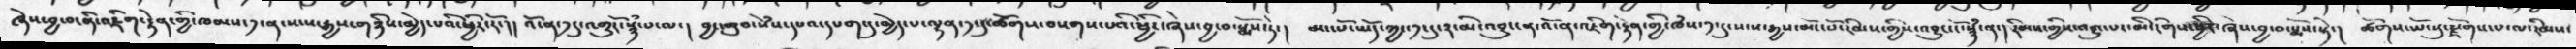ཞེས་བྱ་བ་ནི་འཇིག་རྟེན་གྱི་ཁམས་༡་ན་སངས་རྒྱས་གཉིས་མྱེད་པའི་ཕྱིར་རོ་།། འོ་ན་༡དུ་འགྱུརོ་སྙཾ་པ་ལ་།  བྱང་ཆུབ་སེཾས་དཔའ་དཔག་དུ་མྱེད་པ་ལྷན་༡་དུ་ཚོགས་བསགས་པའི་ཕྱིར་ཞེས་བྱ་བ་སྨོས་ཏེ་།   མང་པོ་ཡོད་ཀྱང་༡་དུ་༢་མི་འབྱུང་ན་འོ་ན་འཇིག་རྟེན་གྱི་ཁཾས་༡་དུ་སངས་རྒྱས་མོང་པོ་རིམས་གྱིས་འབྱུང་ངོ་སྙཾ་ན་། རིམས་གྱིས་འབྱུང་པར་མི་རིགས་ཕྱིར་ཞེས་བྱ་བ་སྨོས་སྟེ་།  ཚོགས་ཡོངསུ་རྫོགས་པ་ལ་རིམས་
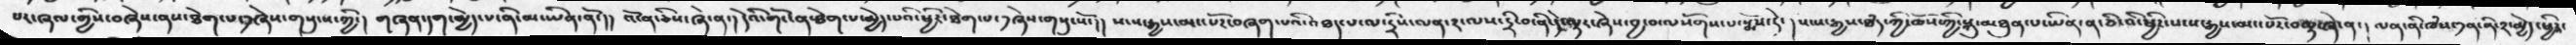པར་ཞལ་གྱིས་བཞེས་ནས་ཐེག་པ་༡ཞེས་གསུངས་ཀྱི་།  གཞན་དག་མྱེད་པ་ནི་མ་ཡིན་ནོ་།། འོ་ན་ཅིས་ཞེ་ན་། དེའི་གོང་ན་ཐེག་པ་མྱེད་པའི་ཕྱིར་ཐེག་པ་༡ཞེས་གསུངསོ་།། སངས་རྒྱས་མང་པོར་བཞག་པའི་འཐད་པ་ལ་དྲིས་ལན་༢་ལས་དྲི་བ་ནི་དེ་ལྟར་ཞེས་བྱ་བ་ལསོགས་པ་སྨོས་ཏེ་ ། སངས་རྒྱས་ཐཾད་ཀྱི་ཆོས་ཀྱི་སྐུ་མཐུན་པ་ཡིན་ན་ཅི་འི་ཕྱིར་སངས་རྒྱས་མང་པོར་བལྟ་ཞེད་ན་། ལན་ནི་ཁཾས་༡ན་ནི་༢་མྱེད་ཕྱིར་
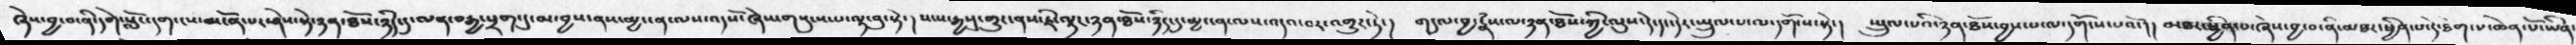ཞེས་བྱ་བ་ནི་དགེ་སློང་དག་ངས་མངོན་པར་ཤེས་སྟེ་ཉན་ཐོས་ཉིད་དུ་ལན་བརྒྱ་ཕྲག་དུ་མ་བྱས་ནས་མྱ་ངན་ལས་འདསོ་ཞེས་གསུངས་པ་ལྟ་བུ་སྟེ་།   སངས་རྒྱསུ་གྱུར་ནས་ཇི་ལྟར་ཉན་ཐོས་ཉིད་དུ་མྱ་ངན་ལས་འདའ་བར་འགྱུར་ཏེ་།  གདུལ་བྱ་རྣཾ་ལ་ཉན་ཐོས་ཀྱི་ལུས་དེ་དང་དེར་སྤྲུལ་པ་ལ་དགོངས་སྟེ་།  སྤྲུལ་པའི་ཉན་ཐོས་བྱས་པ་ལ་དགོངས་པའོ་།།  མཐར་ཕྱིན་པ་ཞེས་བྱ་བ་ནི་མཐར་ཕྱིན་པ་དེ་ཐེག་པ་ཆེན་པོ་ཡིན་
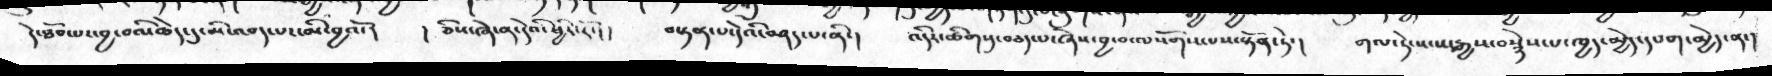དེ་ཐོབ་པར་བྱ་བའི་ཆེད་དུ་མི་འབད་པར་མི་བྱའོ་།  །ཅིས་ཞེ་ན་དེའི་ཕྱིར་རོ།  བསྟན་པ་དེའི་བཤད་པ་ནི་།  འདིར་ཚིགསུ་བཅད་པ་ཞེས་བྱ་བ་ལསོགས་པས་སྟོན་ཏེ་།  གལ་ཏེ་སངས་རྒྱས་བསྙེས་པ་ཁྱད་མྱེད་དཔག་མྱེད་ན་།
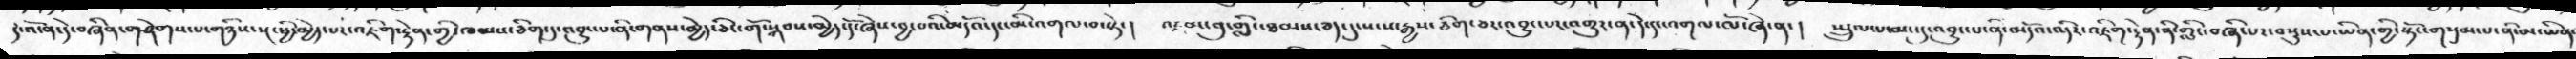དེ་འདོན་དེ་བཞིན་གཤེགས་པ་གཉིས་སྔ་ཕྱི་མྱེད་པར་འཇིག་རྟེན་གྱི་ཁམས་ཅིག་དུ་འབྱུང་པ་ནི་གནས་མྱེད་ཅིང་གོ་སྐབས་མྱེད་དོ་ཞེས་བྱ་བའི་མདོའ་དང་མི་འགལ་བ་སྟེ་།  འཛམ་བུ་གླིང་ཐམས་ཅད་དུ་སངས་རྒྱས་ཅིག་ཅར་འབྱུང་པར་འགྱུར་ན་དེ་དང་འགལ་ལོ་ཞེ་ན་།  སྤྲུལ་པ་མང་དུ་འབྱུང་པ་ནི་མདོའ་འདིར་འཇིག་རྟེན་ནི་གླིང་བཞི་པར་བསྡུས་པ་ཡིན་གྱི་སྟོང་གསུམ་པ་ནི་མ་ཡིན་
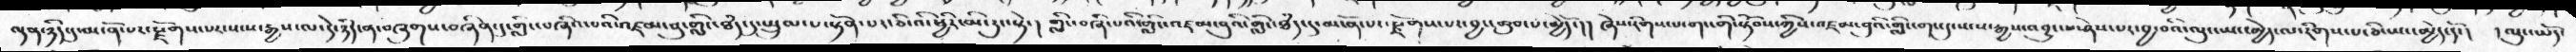ལྡན་ཉིད་དུ་མངོན་པར་རྫོགས་པར་སངས་རྒྱས་ལ་དེ་ཉིད་ན་བཞུགས་བཞིན་དུ་གླིང་བཞིའ་པའི་འཛམ་བུ་གླིང་ཐདཾ་དུ་སྤྲུལ་པ་སྟོན་པར་ཅི་འི་ཕྱིར་མི་རུང་སྟེ་།  གླིང་བཞི་པའི་གླིང་འཛམ་བུའི་གླིང་ཐདཾ་དུ་མངོན་པར་རྫོགས་པར་བྱང་ཆུབ་པ་མྱེདོ་།།  ཞེས་རིགས་པ་གང་གི་སྟོབས་ཀྱིས་འཛམ་བུའི་གླིང་གང་དུ་སངས་རྒྱས་འབྱུང་པ་ཤེས་པར་བྱ་བའི་ལུང་ཡང་མྱེད་ལ་རིགས་པ་ཅི་ཡང་མྱེད་དོ་།  ། ལུང་ཡོད་
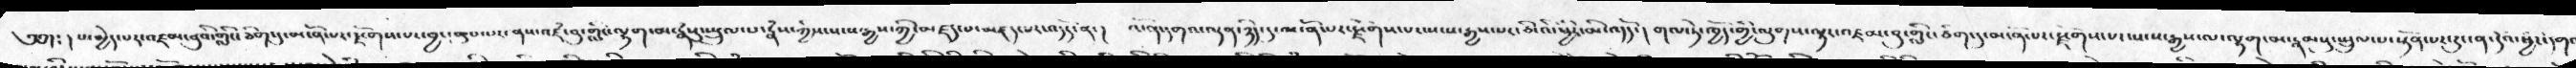༄༅།  ༴ །པ་མྱེད་པར་འཛམ་བུའི་གླིང་ཅིག་དུ་མངོན་པར་རྫོགས་པར་བྱང་ཆུབ་པར་ནས་འཛཾ་བུ་གླིང་ལྷག་མ་རྣཾསུ་སྤྲུལ་པ་རྣཾས་ཀྱིས་སངས་རྒྱས་ཀྱི་མཛད་པར་འདོད་ན་།   འོ་ན་དགའ་ལྡན་ཉིད་དུ་མངོན་པར་རྫོགས་པར་སངས་རྒྱས་པར་ཅི་འི་ཕྱིར་མི་འདོད་།  གལ་ཏེ་ཁྱོད་གྱི་ལུགས་ལྟར་འཛམ་བུ་གླིང་ཅིག་དུ་མངོན་པར་རྫོགས་པར་སངས་རྒྱས་ལ་ལྷག་མ་རྣམསུ་སྤྲུལ་པ་སྟོན་པར་རུང་ན་དེའི་ཕྱིར་དག་
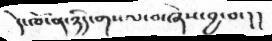དེ་ཁོ་ན་ཉིད་གསལ་བ་ཞེས་བྱ་བ་།།
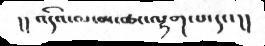།། འདིའ་ལ་མ་ཚང་ལྷག་པ་དང་།།
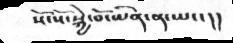སོ་སོ་སྐྱེ་བོཡིན་ན་ཡང་།།
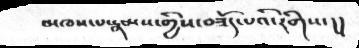མཁས་པ་རྣམས་གྱིས་བཟོད་པའི་རིགས་།།
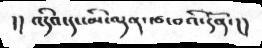།། འདིའ་དང་མི་ལྡན་རྩ་བའི་དོན་།།
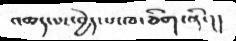འཆད་པར་བྱེད་པ་ཁ་ཅིག་ནི་།།
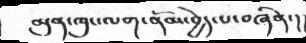མུན་ཁུང་ལག་ནོམ་བྱེད་པ་བཞིན་།།
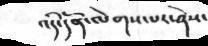འདི་དོན་ལེགས་པར་ཤེས་
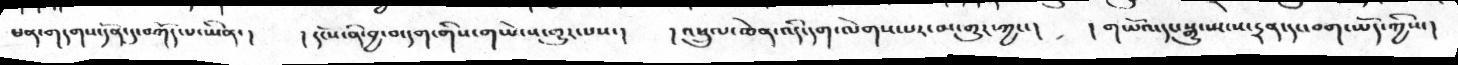ཕན་གདགས་དོན་དུ་བཀོད་པ་ཡིན་།  །དངོས་ནི་བྱ་བ་དག་གིས་གཡེངས་གྱུར་པས་།  །འཕྲུལ་ཆེན་འདི་དག་ལེགས་པར་མ་གྱུར་ཀྱང་།  །གཡོའ་དང་སྒྱུ་སྤངས་དྲན་དང་བག་ཡོད་ཀྱིས་།
